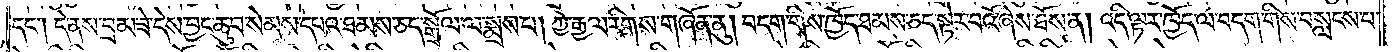དང༌། དེ་ནས་བྲམ་ཟེ་དེས་བྱང་ཆུབ་སེམས་དཔའ་ཐམས་ཅད་སྒྲོལ་ལ་སྨྲས་པ། ཀྱེ་རྒྱལ་རིགས་གཞོན་ནུ། བདག་གིས་ཁྱོད་ཐམས་ཅད་སྟེར་བའོ་ཞེས་ཐོས་ན། འདི་ལྟར་ཁྱོད་ལ་བདག་གིས་བསླངས་པ་
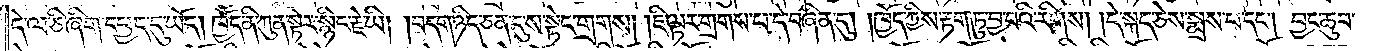དེ་ལ་ཅི་ཞིག་དཔྱད་དུ་ཡོད། ཁྱོད་ནི་ཀུན་སྟེར་སྙིང་རྗེ་ཡི། །བདག་ཉིད་ཅན་དུས་སྟེང་གྲགས། །ཇི་ལྟར་གྲགས་པ་དེ་བཞིན་དུ། །ཁྱོད་ཀྱིས་རྟག་ཏུ་བྱ་བའི་རིགས། །དེ་སྐད་ཅེས་སྨྲས་པ་དང༌། བྱང་ཆུབ་
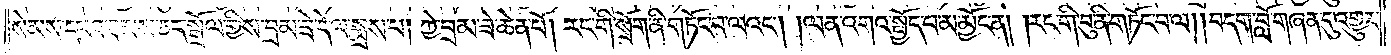སེམས་དཔའ་ཐམས་ཅད་སྒྲོལ་གྱིས་བྲམ་ཟེ་དེ་ལ་སྨྲས་པ། ཀྱེ་བྲམ་ཟེ་ཆེན་པོ། རང་གི་སྲོག་ནི་གཏོང་བ་ལའང༌། །ལན་འགའ་སྤྱོད་པ་མ་མྱོང་ན། །རང་གི་བུ་ནི་གཏོང་བ་ལ། །བདག་བློ་གཞན་དུ་འགྱུར་
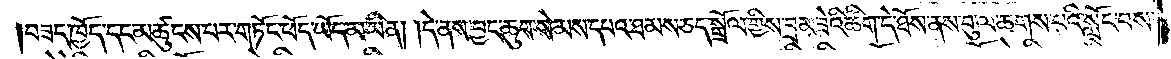བཟད་ཁྱོད་དང་མཚུངས་པར་གཏོང་ཕོད་ཡོད་མ་ཡིན། །དེ་ནས་བྱང་ཆུབ་སེམས་དཔའ་ཐམས་ཅད་སྒྲོལ་གྱིས་བྲམ་ཟེའི་ཚིག་དེ་ཐོས་ནས་བུ་ལ་ཆགས་པའི་སློང་བས་
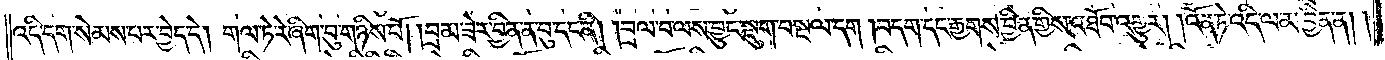འདི་དག་སེམས་པར་བྱེད་དེ། གལ་ཏེ་རེ་ཞིག་བུ་གཉིས་པོ། །བྲམ་ཟེར་བྱིན་ན་བུ་དང་ནི། །བྲལ་བ་ལས་བྱུང་སྡུག་བསྔལ་དག །བདག་དང་རྒྱགས་བྱིན་གྱིས་འཐོབ་འགྱུར། །འོན་ཏེ་འདི་ལ་མ་བྱིན་ན༎
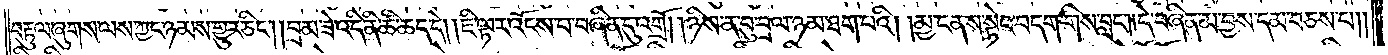བརྟུལ་ཞུགས་ལས་ཀྱང་ཉམས་གྱུར་ཅིང༌། །བྲམ་ཟེ་འདི་ནི་ཚི་ཆད་དེ། །ཇི་ལྟར་འོངས་པ་བཞིན་དུ་འགྲོ། །ཉིས་ན་བུ་བྲལ་ཉམ་ཐག་པའི། །མྱ་ངན་ས་སྟེང་བདག་གིས་བླང༌། །དེ་བཞིན་མ་བྱས་དམ་བཅས་པ༎
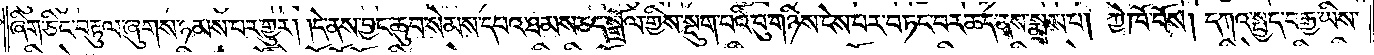ཞིག་ཅིང་བརྟུལ་ཞུགས་ཉམས་པར་གྱུར། །དེ་ནས་བྱང་ཆུབ་སེམས་དཔའ་ཐམས་ཅད་སྒྲོལ་གྱིས་སྡུག་པའི་བུ་གཉིས་ངེས་པར་བཏང་བར་ཆད་ནས་སྨྲས་པ། ཀྱེ་ཁོ་བོས། དཀའ་སྤྱད་བརྒྱ་ཡིས་
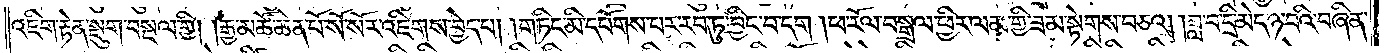འཇིག་རྟེན་སྡུག་བསྔལ་གྱི། །རྒྱ་མཚོ་ཆེན་པོ་སོ་སོར་འཇིགས་བྱེད་པ། །གཏིང་མི་དཔོགས་པར་རབ་ཏུ་བྱིང་བ་དག །ཕ་རོལ་བསྒྲལ་ཕྱིར་ལམ་གྱི་ཟམ་སྟེགས་བཅའ། །ཟླ་བ་དྲི་མེད་ཉ་བའི་བཞིན་
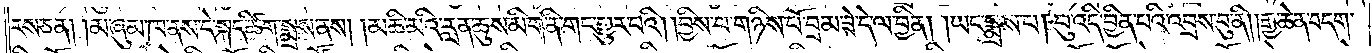རས་ཅན། །མ་ཞུམ་ཁ་ནས་དེ་སྐད་ཚིག་སྨྲས་ནས། །མཆི་མའི་རླན་ཆུས་མིག་ནི་གང་གྱུར་བའི། །བྱིས་པ་གཉིས་པོ་བྲམ་ཟེ་དེ་ལ་བྱིན། །ཡང་སྨྲས་པ། བུ་འདི་བྱིན་པའི་འབྲས་བུ་ནི། །རྒྱ་ཆེན་བདག་
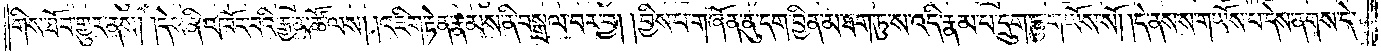གིས་ཐོབ་གྱུར་ནས། །དེས་ནི་འཁོར་བའི་རྒྱ་མཚོ་ལས། །འཇིག་རྟེན་རྣམས་ནི་བསྒྲལ་བར་བྱ། །བྱིས་པ་གཞོན་ནུ་དག་བྱིན་མ་ཐག་ཏུ་ས་འདི་རྣམ་པ་དྲུག་ཏུ་གཡོས་སོ། །དེ་ནས་གཡོས་པ་དེས་ནགས་དེ་
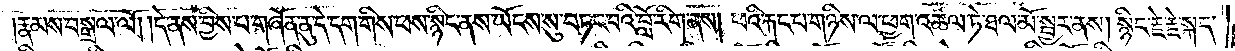།རྣམས་བསྒྲལ་ལོ། །དེ་ནས་བྱིས་པ་གཞོན་ནུ་དེ་དག་གིས་ཕས་སྙིང་ནས་ཡོངས་སུ་བཏང་བའི་བློ་རིག་ནས། ཕའི་རྐང་པ་གཉིས་ལ་ཕྱག་འཚལ་ཏེ་ཐལ་མོ་སྦྱར་ནས། སྙིང་རྗེ་རྗེ་སྐད་
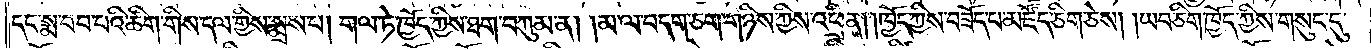དང་སྨ་བབ་པའི་ཚིག་གིས་དལ་གྱིས་སྨྲས་པ། གལ་ཏེ་ཁྱོད་ཀྱིས་ཐག་བཀུམ་ན། །མ་ལ་བདག་ཅག་གཉིས་ཀྱིས་འཕྲིན། །ཁྱོད་ཀྱིས་བཟོད་པ་མཛོད་ཅིག་ཅེས། །ཡབ་ཅིག་ཁྱོད་ཀྱིས་གསུང་དུ་
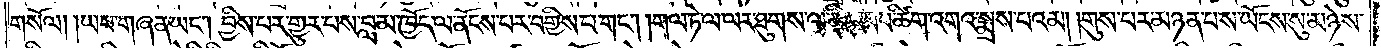གསོལ། །ཡབ་གཞན་ཡང༌། བྱིས་པར་གྱུར་པས་བླ་མ་ཁྱོད་ལ་ནོངས་པར་བགྱིས་པ་གང༌། །གལ་ཏེ་ལ་ལར་ཐུགས་ལ་མི་འབབ་ཚིག་འགའ་སྨྲས་པའམ། །གུས་པར་མཉན་པ་ས་ཡོངས་སུ་མཉེས་
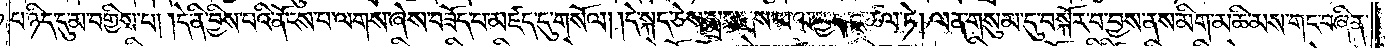པ་ཉིད་དུ་མ་བགྱིས་པ། །དེ་ནི་བྱིས་པའི་ནོངས་པ་ལགས་ཞེས་བཟོད་པ་མཛད་དུ་གསོལ། །དེ་སྐད་ཅེས་སྨྲས་ནས་ཕ་ལ་ཕྱག་འཚལ་ཏེ། ལན་གསུམ་དུ་བསྐོར་བ་བྱས་ནས་མིག་མཆི་མས་གང་བཞིན་
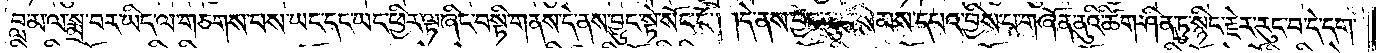བླ་མ་ལ་སྨྲ་བར་ཡིད་ལ་གཅགས་པས་ཡང་དང་ཡང་ཕྱིར་ལྟ་ཞིང་བསྟི་གནས་དེ་ནས་བྱུང་སྟེ་སོང་ངོ༌། །དེ་ནས་བྱང་ཆུབ་སེམས་དཔའ་བྱིས་པ་གཞོན་ནུའི་ཚིག་ཤིན་ཏུ་སྙིང་རྗེར་རུང་བ་དེ་དག་
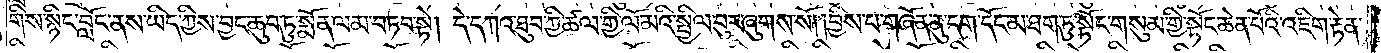གིས་སྙིང་བློང་ནས་ཡིད་ཀྱིས་བྱང་ཆུབ་ཏུ་སྨོན་ལམ་བཏབ་སྟེ། དེ་དཀའ་ཐུབ་ཀྱི་ཚལ་གྱི་ལོ་མའི་སྤྱིལ་བུར་ཞུགས་སོ། །བྱིས་པ་གཞོན་ནུ་དག་དོང་མ་ཐག་ཏུ་སྟོང་གསུམ་གྱི་སྟོང་ཆེན་པོའི་འཇིག་རྟེན་
